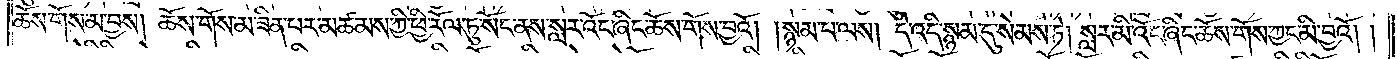ཆོས་གོས་མ་བྱས། ཆོས་གོས་མ་ཟིན་པར་མཚམས་ཀྱི་ཕྱི་རོལ་ཏུ་སོང་ནས་སླར་འོང་ཞིང་ཆོས་གོས་བྱའོ། །སྙམ་པ་ལས། དེ་འདི་སྙམ་དུ་སེམས་ཏེ། སླར་མི་འོང་ཞིང་ཆོས་གོས་ཀྱང་མི་བྱའོ། །
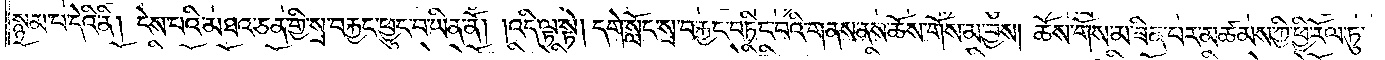སྙམ་པ་དེའི་ནི། ངེས་པའི་མཐའ་ཅན་གྱི་སྲ་བརྐྱང་ཕྱུང་བ་ཡིན་ནོ། །འདི་ལྟ་སྟེ། དགེ་སློང་སྲ་བརྐྱང་བཏིང་བའི་གནས་ནས་ཆོས་གོས་མ་བྱས། ཆོས་གོས་མ་ཟིན་པར་མཚམས་ཀྱི་ཕྱི་རོལ་ཏུ་
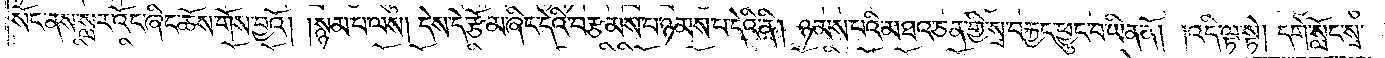སོང་ནས་སླར་འོང་ཞིང་ཆོས་གོས་བྱའོ། །སྙམ་པ་ལས། དེས་དེ་རྩོམ་ཞིང་དེའི་བརྩམས་པ་ཉམས་པ་དེའི་ནི། ཉམས་པའི་མཐའ་ཅན་གྱི་སྲ་བརྐྱང་ཕྱུང་བ་ཡིན་ནོ། །འདི་ལྟ་སྟེ། དགེ་སློང་སྲ་
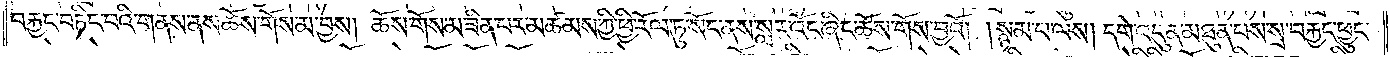བརྐྱང་བཏིང་བའི་གནས་ནས་ཆོས་གོས་མ་བྱས། ཆོས་གོས་མ་ཟིན་པར་མཚམས་ཀྱི་ཕྱི་རོལ་ཏུ་སོང་ནས་སླར་འོང་ཞིང་ཆོས་གོས་བྱའོ། །སྙམ་པ་ལས། དགེ་འདུན་མཐུན་པས་སྲ་བརྐྱང་ཕྱུང་
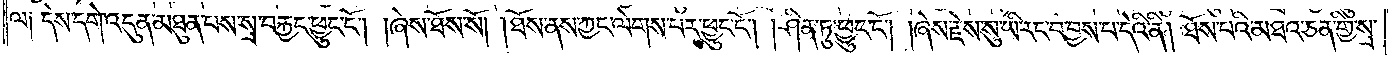ལ༑ དེས་དགེ་འདུན་མཐུན་པས་སྲ་བརྐྱང་ཕྱུང་ངོ༌། །ཞེས་ཐོས་སོ། །ཐོས་ནས་ཀྱང་ལེགས་པར་ཕྱུང་ངོ༌། །ཤིན་ཏུ་ཕྱུང་ངོ༌། །ཞེས་རྗེས་སུ་ཡི་རང་བ་བྱས་པ་དེའི་ནི། ཐོས་པའི་མཐའ་ཅན་གྱི་སྲ་
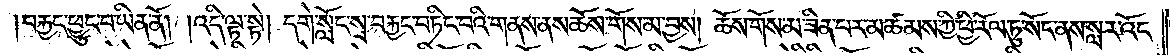བརྐྱང་ཕྱུང་བ་ཡིན་ནོ། །འདི་ལྟ་སྟེ། དགེ་སློང་སྲ་བརྐྱང་བཏིང་བའི་གནས་ནས་ཆོས་གོས་མ་བྱས། ཆོས་གོས་མ་ཟིན་པར་མཚམས་ཀྱི་ཕྱི་རོལ་ཏུ་སོང་ནས་སླར་འོང་
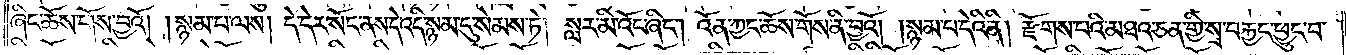ཞིང་ཆོས་གོས་བྱའོ། །སྙམ་པ་ལས། དེ་དེར་སོང་ནས་དེ་འདི་སྙམ་དུ་སེམས་ཏེ། སླར་མི་འོང་ཞིང༌། འོན་ཀྱང་ཆོས་གོས་ནི་བྱའོ། །སྙམ་པ་དེའི་ནི། རྫོགས་པའི་མཐའ་ཅན་གྱི་སྲ་བརྐྱང་ཕྱུང་བ་
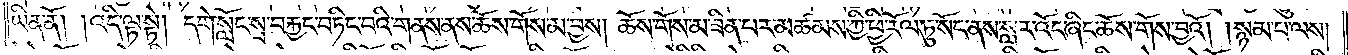ཡིན་ནོ། །འདི་ལྟ་སྟེ། དགེ་སློང་སྲ་བརྐྱང་བཏིང་བའི་གནས་ནས་ཆོས་གོས་མ་བྱས། ཆོས་གོས་མ་ཟིན་པར་མཚམས་ཀྱི་ཕྱི་རོལ་ཏུ་སོང་ནས་སླར་འོང་ཞིང་ཆོས་གོས་བྱའོ། །སྙམ་པ་ལས།
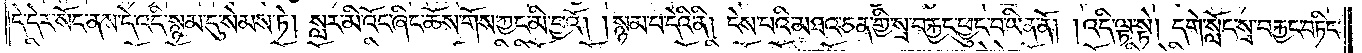དེ་དེར་སོང་ནས་དེ་འདི་སྙམ་དུ་སེམས་ཏེ། སླར་མི་འོང་ཞིང་ཆོས་གོས་ཀྱང་མི་བྱའོ། །སྙམ་པ་དེའི་ནི། ངེས་པའི་མཐའ་ཅན་གྱི་སྲ་བརྐྱང་ཕྱུང་བ་ཡིན་ནོ། །འདི་ལྟ་སྟེ། དགེ་སློང་སྲ་བརྐྱང་བཏིང་
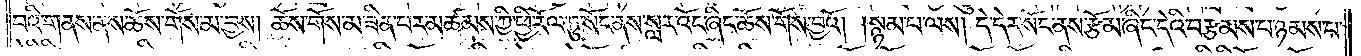བའི་གནས་ནས་ཆོས་གོས་མ་བྱས། ཆོས་གོས་མ་ཟིན་པར་མཚམས་ཀྱི་ཕྱི་རོལ་ཏུ་སོང་ནས་སླར་འོང་ཞིང་ཆོས་གོས་བྱའོ། །སྙམ་པ་ལས། དེ་དེར་སོང་ནས་རྩོམ་ཞིང་དེའི་བརྩམས་པ་ཉམས་པ་
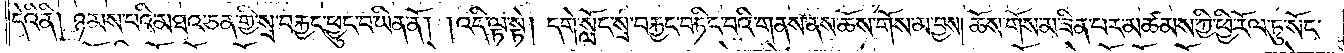དེའི་ནི། ཉམས་པའི་མཐའ་ཅན་གྱི་སྲ་བརྐྱང་ཕྱུང་བ་ཡིན་ནོ། །འདི་ལྟ་སྟེ། དགེ་སློང་སྲ་བརྐྱང་བཏིང་བའི་གནས་ནས་ཆོས་གོས་མ་བྱས། ཆོས་གོས་མ་ཟིན་པར་མཚམས་ཀྱི་ཕྱི་རོལ་ཏུ་སོང་
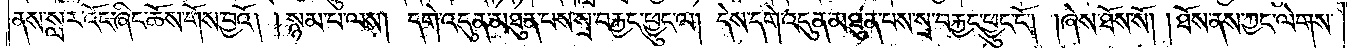ནས་སླར་འོང་ཞིང་ཆོས་གོས་བྱའོ། །སྙམ་པ་ལས། དགེ་འདུན་མཐུན་པས་སྲ་བརྐྱང་ཕྱུང་ལ། དེས་དགེ་འདུན་མཐུན་པས་སྲ་བརྐྱང་ཕྱུང་ངོ༌། །ཞེས་ཐོས་སོ། །ཐོས་ནས་ཀྱང་ལེགས་
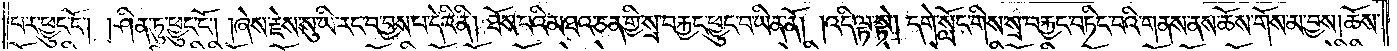པར་ཕྱུང་ངོ༌། །ཤིན་ཏུ་ཕྱུང་ངོ༌། །ཞེས་རྗེས་སུ་ཡི་རང་བ་བྱས་པ་དེའི་ནི། ཐོས་པའི་མཐའ་ཅན་གྱི་སྲ་བརྐྱང་ཕྱུང་བ་ཡིན་ནོ། །འདི་ལྟ་སྟེ། དགེ་སློང་གིས་སྲ་བརྐྱང་བཏིང་བའི་གནས་ནས་ཆོས་གོས་མ་བྱས། ཆོས་
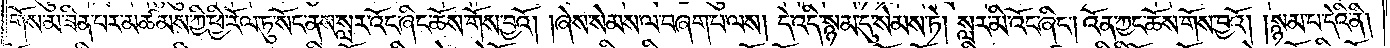གོས་མ་ཟིན་པར་མཚམས་ཀྱི་ཕྱི་རོལ་ཏུ་སོང་ནས་སླར་འོང་ཞིང་ཆོས་གོས་བྱའོ། །ཞེས་སེམས་ལ་བཞག་པ་ལས། དེ་འདི་སྙམ་དུ་སེམས་ཏེ། སླར་མི་འོང་ཞིང༌། འོན་ཀྱང་ཆོས་གོས་བྱའོ། །སྙམ་པ་དེའི་ནི།
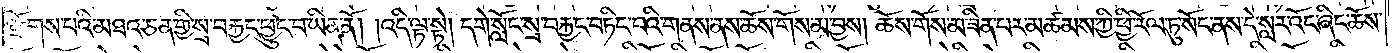རྫོགས་པའི་མཐའ་ཅན་གྱི་སྲ་བརྐྱང་ཕྱུང་བ་ཡིན་ནོ། །འདི་ལྟ་སྟེ། དགེ་སློང་སྲ་བརྐྱང་བཏིང་བའི་གནས་ནས་ཆོས་གོས་མ་བྱས། ཆོས་གོས་མ་ཟིན་པར་མཚམས་ཀྱི་ཕྱི་རོལ་ཏུ་སོང་ནས་དེ་སླར་འོང་ཞིང་ཆོས་
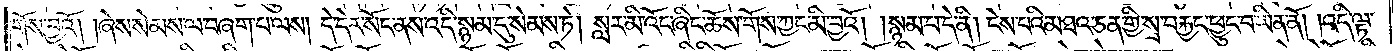གོས་བྱའོ། །ཞེས་སེམས་ལ་བཞག་པ་ལས། དེ་དེར་སོང་ནས་འདི་སྙམ་དུ་སེམས་ཏེ། སླར་མི་འོང་ཞིང་ཆོས་གོས་ཀྱང་མི་བྱའོ། །སྙམ་པ་དེ་ནི། ངེས་པའི་མཐའ་ཅན་གྱི་སྲ་བརྐྱང་ཕྱུང་བ་ཡིན་ནོ། །འདི་ལྟ་
